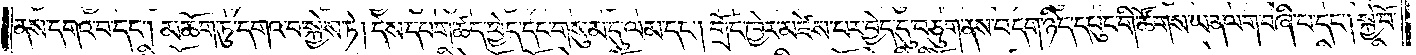ནས་དགའ་བ་དང༌། མཆོག་ཏུ་དགའ་བ་སྐྱེས་ཏེ། དེས་དཔག་ཚད་ཕྱེད་དང་གསུམ་དུ་ལམ་དང༌། གྲོང་ཁྱེར་མཛེས་པར་བྱེད་དུ་བཅུག་ནས་བདག་ཉིད་དཔུང་གི་ཚོགས་ཡན་ལག་བཞི་པ་དང༌། སྐྱེ་བོ་
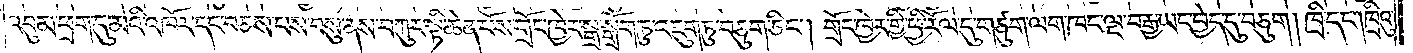འབུམ་ཕྲག་དུ་མའི་འཁོར་དང་བཅས་པས་བསུ་ནས་བཀུར་སྟི་ཆེན་པོས་གྲོང་ཁྱེར་སྒྲ་སྒྲོག་ཏུ་འཇུག་ཏུ་བཅུག་ཅིང༌། གྲོང་ཁྱེར་གྱི་ཕྱི་རོལ་དུ་གཙུག་ལག་ཁང་ལྔ་བརྒྱ་ཡང་བྱེད་དུ་བཅུག །ཁྲི་དང༌། ཁྲིའུ་
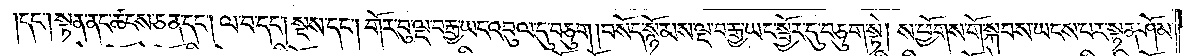དང༌། སྟན་ནང་ཚངས་ཅན་དང༌། ལ་བ་དང༌། སྔས་དང༌། གོར་བུ་ལྔ་བརྒྱ་ཡང་འབུལ་དུ་བཅུག །བསོད་སྙོམས་ལྔ་བརྒྱ་ཡང་སྦྱོར་དུ་བཅུག་སྟེ། ས་ཕྱོགས་གོ་སྐབས་ཡངས་པར་སྟན་ཤོམ་
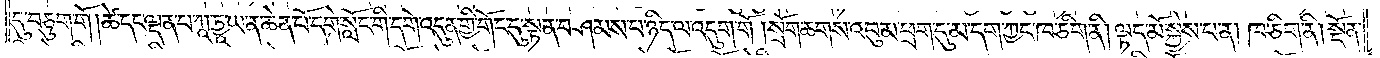དུ་བཅུག་གོ །ཚེ་དང་ལྡན་པ་ཀཱ་ཏྱཱ་ཡ་ན་ཆེན་པོ་དགེ་སློང་གི་དགེ་འདུན་གྱི་གོང་དུ་སྟན་བཤམས་པ་ཉིད་ལ་འདུག་གོ །སྲོག་ཆགས་འབུམ་ཕྲག་དུ་མ་དག་ཀྱང་ཁ་ཅིག་ནི། ལྟད་མོ་སྐྱེས་པ་ན། ཁ་ཅིག་ནི། སྔོན་
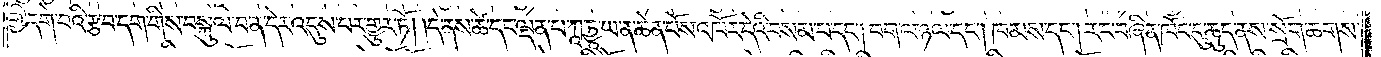གྱི་དགེ་བའི་རྩ་བ་དག་གིས་བསྐུལ་བ་ན་དེར་འདུས་པར་གྱུར་ཏོ། །དེ་ནས་ཚེ་དང་ལྡན་པ་ཀཱ་ཏྱཱ་ཡ་ན་ཆེན་པོས་འཁོར་དེའི་བསམ་པ་དང༌། བག་ལ་ཉལ་དང༌། ཁམས་དང༌། རང་བཞིན་ཁོང་དུ་ཆུད་ནས་སྲོག་ཆགས་
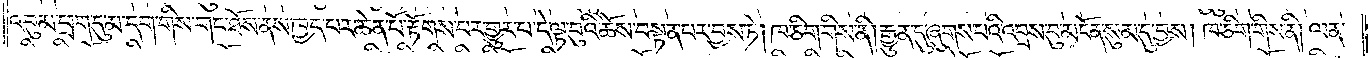འབུམ་ཕྲག་དུ་མ་དག་གིས་གང་ཐོས་ནས་ཁྱད་པར་ཆེན་པོ་རྟོགས་པར་གྱུར་པ་དེ་ལྟ་བུའི་ཆོས་བསྟན་པར་བྱས་ཏེ། ཁ་ཅིག་གིས་ནི། རྒྱུན་དུ་ཞུགས་པའི་འབྲས་བུ་མངོན་སུམ་དུ་བྱས། ཁ་ཅིག་གིས་ནི། ལན་
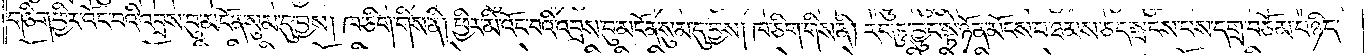གཅིག་ཕྱིར་འོང་བའི་འབྲས་བུ་མངོན་སུམ་དུ་བྱས། ཁ་ཅིག་གིས་ནི། ཕྱིར་མི་འོང་བའི་འབྲས་བུ་མངོན་སུམ་དུ་བྱས། ཁ་ཅིག་གིས་ནི། རབ་ཏུ་བྱུང་སྟེ་ཉོན་མོངས་པ་ཐམས་ཅད་སྤངས་པས་དགྲ་བཅོམ་པ་ཉིད་
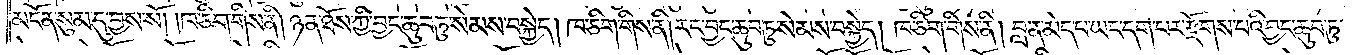མངོན་སུམ་དུ་བྱས་སོ། །ཁ་ཅིག་གིས་ནི། ཉན་ཐོས་ཀྱི་བྱང་ཆུབ་ཏུ་སེམས་བསྐྱེད། ཁ་ཅིག་གིས་ནི། རང་བྱང་ཆུབ་ཏུ་སེམས་བསྐྱེད། ཁ་ཅིག་གིས་ནི། བླ་ན་མེད་པ་ཡང་དག་པར་རྫོགས་པའི་བྱང་ཆུབ་ཏུ་
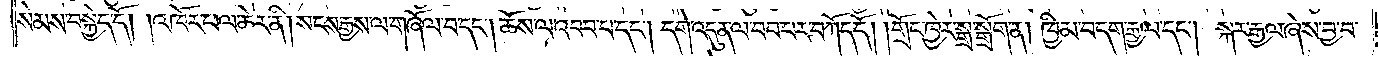སེམས་བསྐྱེད་དོ། །འཁོར་ཕལ་ཆེར་ནི། སངས་རྒྱས་ལ་གཞོལ་བ་དང༌། ཆོས་ལ་འབབ་པ་དང༌། དགེ་འདུན་ལ་བབ་པར་བཀོད་དོ། །གྲོང་ཁྱེར་སྒྲ་སྒྲོག་ན། ཁྱིམ་བདག་རྒྱལ་དང༌། སྐར་རྒྱལ་ཞེས་བྱ་བ་
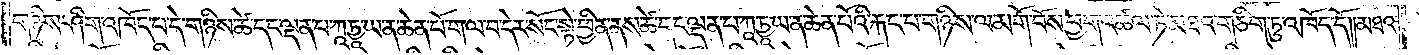གཉིས་ཤིག་འཁོད་པ་དེ་གཉིས་ཆེ་དང་ལྡན་པ་ཀཱ་ཏྱཱ་ཡ་ན་ཆེན་པོ་ག་ལ་བ་དེར་སོང་སྟེ་ཕྱིན་ནས་ཚེ་དང་ལྡན་པ་ཀཱ་ཏྱཱ་ཡ་ན་ཆེན་པོའི་རྐང་པ་གཉིས་ལ་མགོ་བོས་ཕྱག་འཚལ་ཏེ་མཐའ་གཅིག་ཏུ་འཁོད་དོ། །མཐའ་
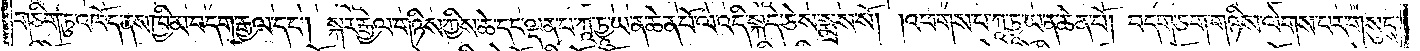གཅིག་ཏུ་འཁོད་ནས་ཁྱིམ་བདག་རྒྱལ་དང༌། སྐར་རྒྱལ་གཉིས་ཀྱིས་ཚེ་དང་ལྡན་པ་ཀཱཏྱཱ་ཡ་ན་ཆེན་པོ་ལ་འདི་སྐད་ཅེས་སྨྲས་སོ། །འཕགས་པ་ཀཱ་ཏྱཱ་ཡ་ན་ཆེན་པོ། བདག་ཅག་གཉིས་ལེགས་པར་གསུངས་
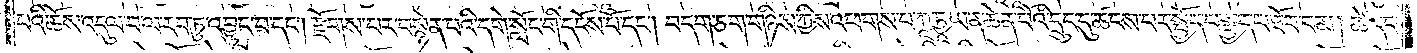པའི་ཆོས་འདུལ་བ་ལ་རབ་ཏུ་འབྱུང་བ་དང༌། རྫོགས་པར་བསྙེན་པའི་དགེ་སློང་གི་དངོས་པོ་དང༌། བདག་ཅག་གཉིས་ཀྱིས་འཕགས་པ་ཀཱ་ཏྱཱ་ཡ་ན་ཆེན་པོའི་དྲུང་དུ་ཚངས་པར་སྤྱོད་པ་སྤྱད་པ་ཐོབ་བམ། ཚེ་དང་
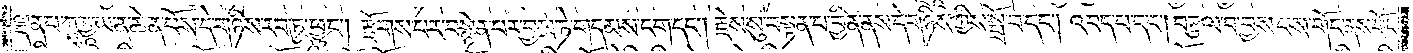ལྡན་པ་ཀཱ་ཏྱཱ་ཡ་ན་ཆེན་པོས་དེ་གཉིས་རབ་ཏུ་ཕྱུང༌། རྫོགས་པར་བསྙེན་པར་བྱས་ཏེ་གདམས་ངག་དང༌། རྗེས་སུ་བསྟན་པ་བྱིན་ནས་དེ་གཉིས་ཀྱིས་སྤྲོ་བ་དང༌། འབད་པ་དང༌། བརྩལ་པ་བྱས་པས་གོང་ནས་གོང་
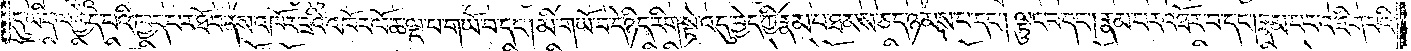དུ་ཡིད་ལ་བྱེད་པའི་ཁྱད་པར་ཐོབ་ནས་འཁོར་བའི་འཁོར་ལོ་ཆ་ལྔ་པ་གཡོ་བ་དང༌། མི་གཡོ་བ་དེ་ཉིད་རིག་སྟེ་འདུ་བྱེད་ཀྱི་རྣམ་པ་ཐམས་ཅད་ཉམས་པ་དང༌། ལྟུང་བ་དང༌། རྣམ་པར་འཐོར་བ་དང༌། རྣམ་པར་འཇིག་པའི་
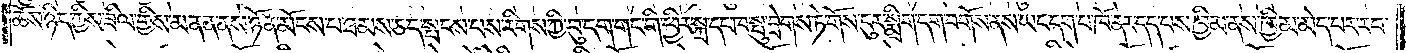ཆོས་ཉིད་ཀྱིས་ཟིལ་གྱིས་མནན་ནས་ཉོན་མོངས་པ་ཐམས་ཅད་སྤངས་པས་རིགས་ཀྱི་བུ་དག་གང་གི་ཕྱིར་སྐྲ་དང་ཁ་སྤུ་བྲེགས་ཏེ་གོས་ངུར་སྨྲིག་དག་བགོས་ནས་ཡང་དག་པ་ཁོ་ནར་དད་པས་ཁྱིམ་ནས་ཁྱིམ་མེད་པར་རབ་
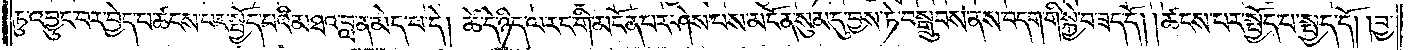ཏུ་འབྱུང་བར་བྱེད་པ་ཚངས་པར་སྤྱོད་པའི་མཐའ་བླ་ན་མེད་པ་དེ། ཚེ་དེ་ཉིད་ལ་རང་གི་མངོན་པར་ཤེས་པས་མངོན་སུམ་དུ་བྱས་ཏེ་བསྒྲུབས་ནས་བདག་གི་སྐྱེ་བ་ཟད་དོ། །ཚངས་པར་སྤྱོད་པ་སྤྱད་དོ། །བྱ་
